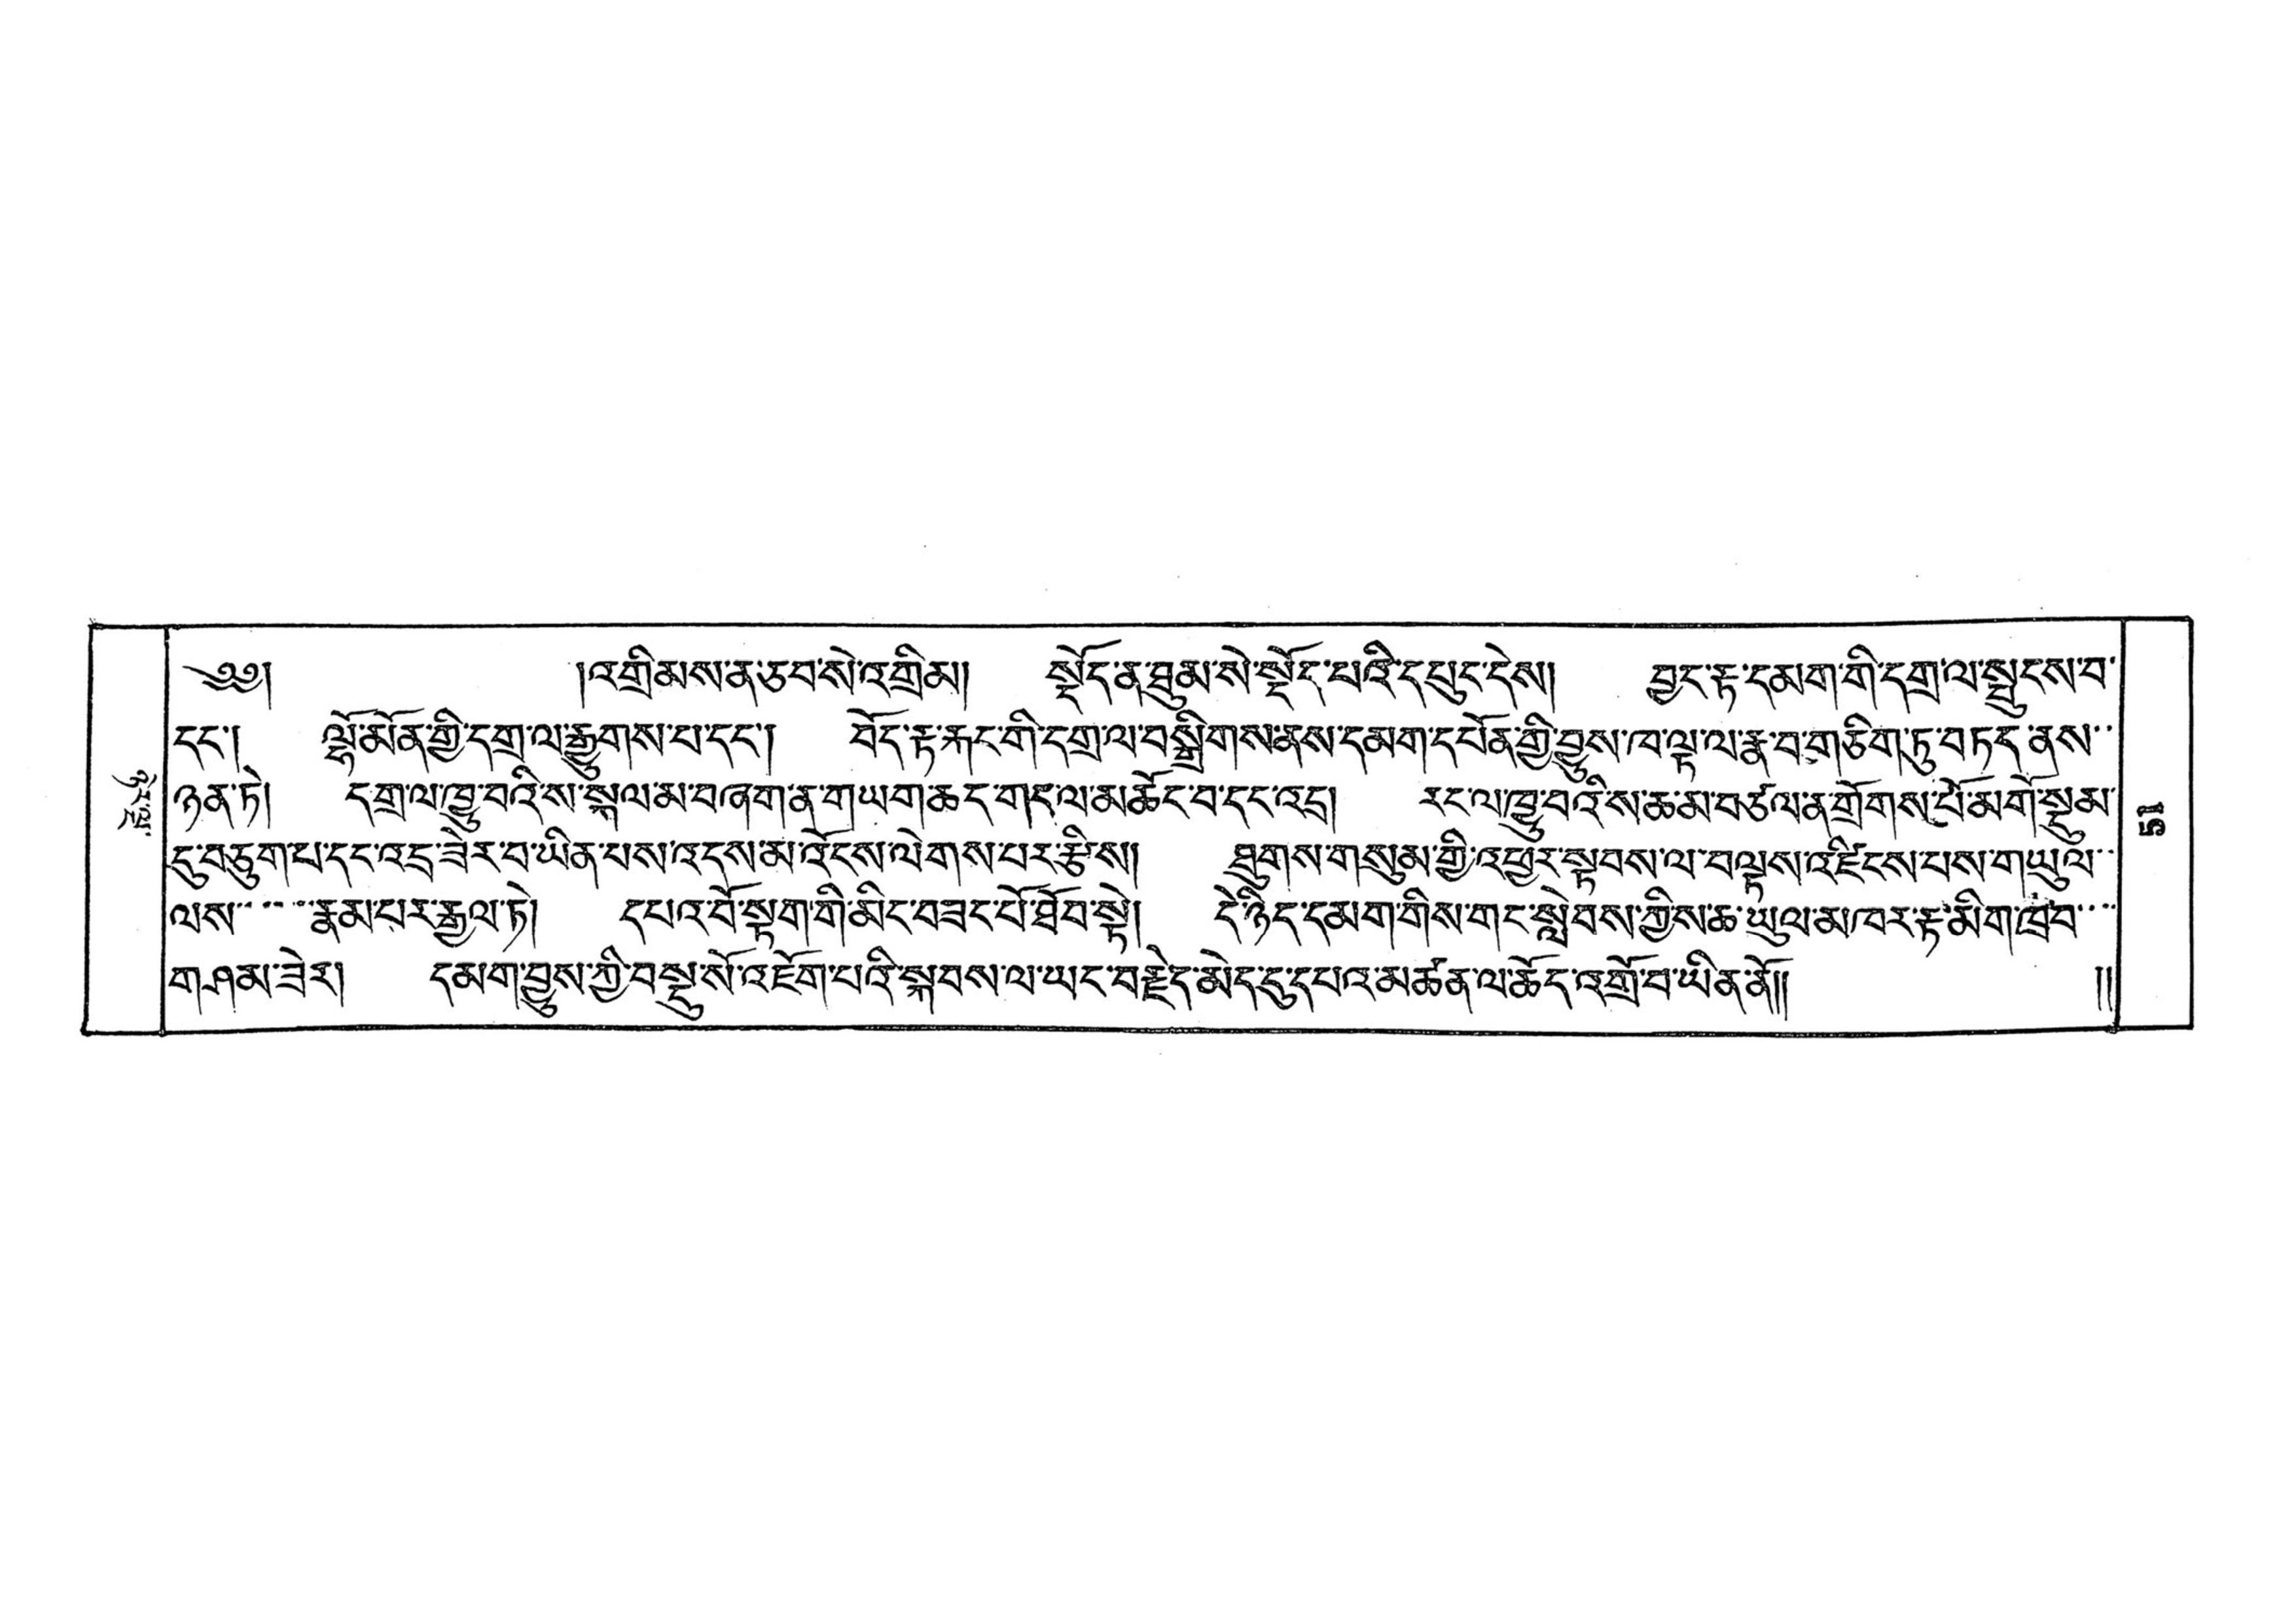ཉེར་ལྔ་
༄༅། །འགྲིམས་ན་ཅབ་སེ་འགྲིམ། སྡོད་ན་ཐུམ་སེ་སྡོད་པའི་དཔུང་དེས། བྱང་རྟ་དམག་གི་དགྲ་ལ་སྤུངས་བ་
དང་། ལྷོ་མོན་གྱི་དགྲ་ལ་རྒྱུགས་པ་དང་། བོད་རྟ་རྐང་གི་དགྲ་ལ་བསྒྲིགས་ནས་དམག་དཔོན་གྱི་བྱས་ཁ་ལྟ་ལ་རྣ་བ་གཅིག་ཏུ་བཏད་ནས་་
ཉན་ཏེ། དགྲ་ལ་ཁྱུ་བའི་ས་སྐལ་མ་བཞག་ན་གཡག་ཆད་གང་ལ་མཆོང་བ་དང་འདྲ། རང་ལ་ཁྱུ་བའི་ས་ཆ་མ་བཙལ་ན་གྲོགས་པོ་མགོ་སྡུམ་
དུ་བཅུག་པ་དང་འདྲ་ཟེར་བ་ཡིན་པས་འདས་མ་འོངས་ལེགས་པར་རྩིས། ཐུགས་གསུམ་གྱི་འཕྱར་སྟབས་ལ་བལྟས་འཛིངས་པས་གཡུལ་་
ལས་་་་་རྣམ་པར་རྒྱལ་ཏེ། དཔའ་བོ་སྟག་གི་མིང་བཟང་པོ་ཐོབ་སྟེ། དེ་ཉིད་དམག་གིས་གང་སླེབས་ཀྱིས་ཆ་ཡུལ་མཁར་རྟ་མིག་ཁྲབ་་་་
གཤམ་ཟེར། དམག་བྱུས་ཀྱི་བསྡུ་སོ་འཇོག་པའི་སྐབས་ལ་ཡང་བརྗེད་མེད་དུ་དཔའ་མཚན་ལ་ཆོད་འགྲོ་བ་ཡིན་ནོ།།  །།
